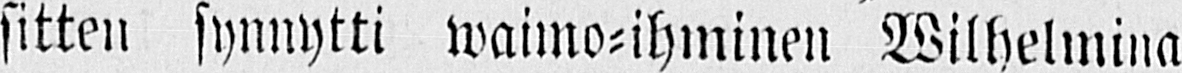sitten synnytti waimo-ihminen Wilhelmina
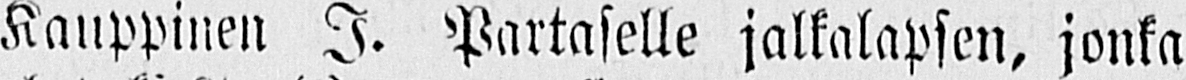Kauppinen I. Partaselle jalkalapsen, jonka
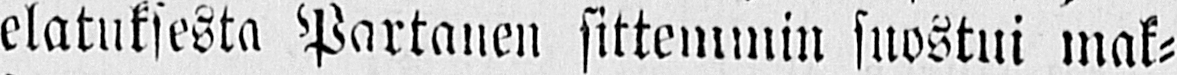elatuksesta Partanen sittemmin suostui mak-
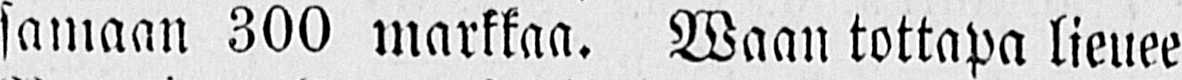suinaan 300 markkaa. Waan tottapa lieuee
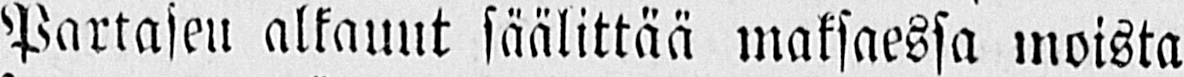Partaseu alkauut säälittää maksaessa moista
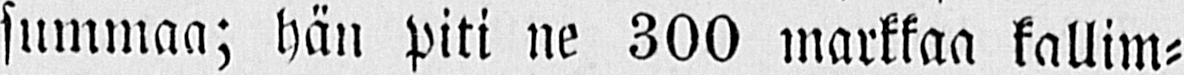summaa; hän piti ne 300 markkaa kallim-
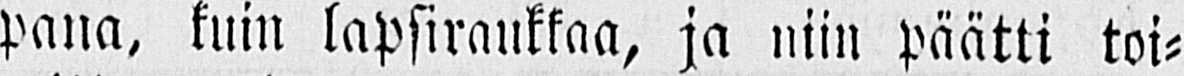pana, kuin lapsiraukkaa, ja niin päätti toi-
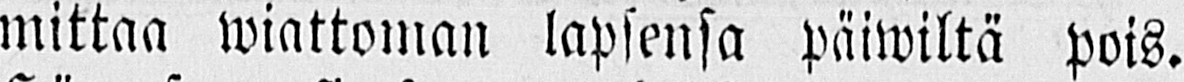mittaa wiattoman lapsensa päiwiltä pois.
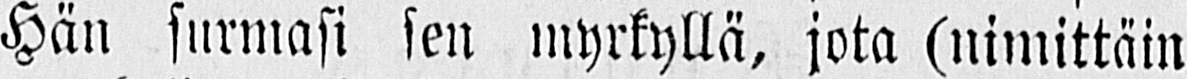Hän surmasi sen myrkyllä, jota (nimittäin
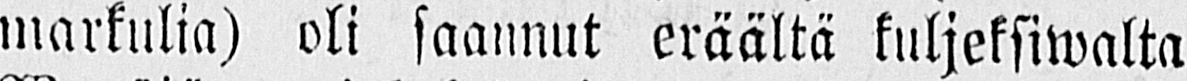markulia) oli saannut eräältä kuljeksiwalta
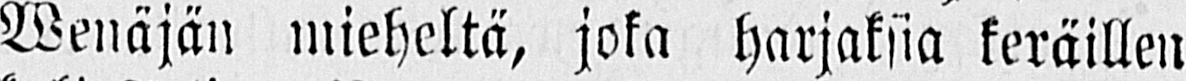Wenäjän mieheltä, joka harjaksia keräillen
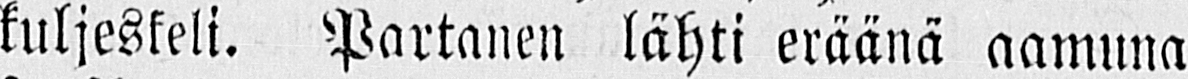kuljeskeli. Partanen lähti eräänä aamuna
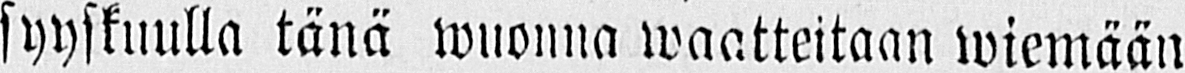syyskuulla tänä wuonna waatteitaan wiemään
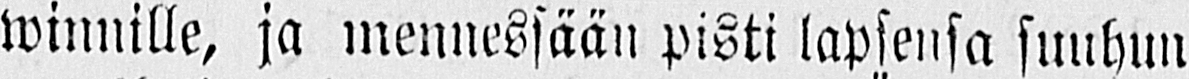winnille, ja mennessään pisti lapsensa suuhun
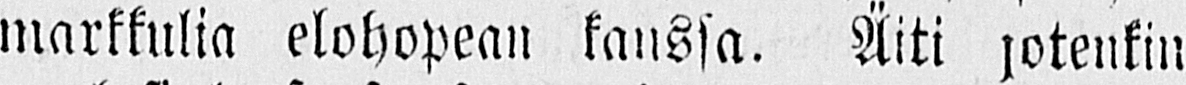markkulia elohopean kanssa. Äiti jotenkin
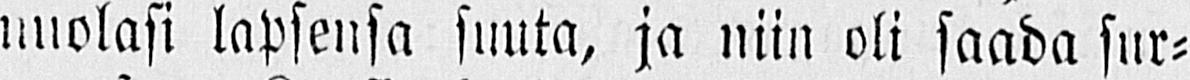uuolasi lapsensa suuta, ja niin oli saada sur-
